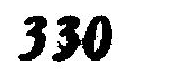330
